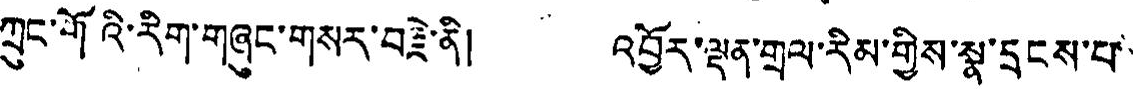ཀྲུང་གོའི་རིག་གཞུང་གསར་བརྗེ་ནི། འབྱོར་ལྡན་གྲལ་རིམ་གྱིས་སྣ་དྲངས་པ་
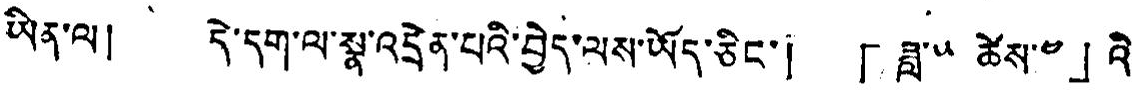ཡིན་ལ། དེ་དག་ལ་སྣ་འདྲེན་པའི་བྱེད་ལས་ཡོད་ཅིང་། 「ཟླ་༥ ཚེས་༤」འི་
